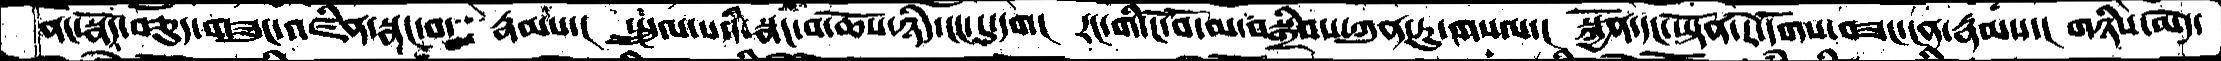ནང་སྣོད་བཅུད་གཟུང་འཛིན་སྣང་བ་   རྣམས་།  སྤྲུལ་པའི་སྣང་བ་ཆོས་ཉིད་ངང་དུ་དག།  རང་གི་ངོ་བོ་མ་བསྒྲིབས་ཀུན་ཏུ་གསལ་།  སྐྱོན་དང་ཡྟོན་རེ་དོགས་བཟང་ངན་རྣམས་།  གཉིས་མེད་
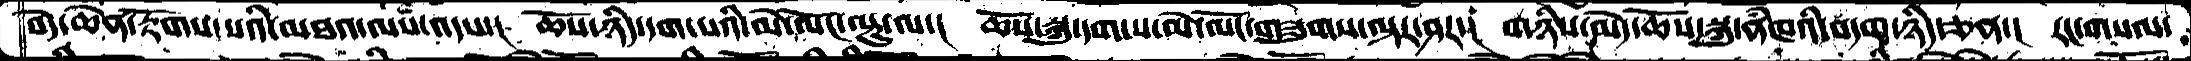བདེ་ཆེན་རྟོགས་པའི་མཐའ་ལས་འདས་།  ཆོས་ཉིད་དག་པའི་མེ་ལོང་ལྟུ་ལ་།  ཆོས་སྐུ་དག་པ་མེ་ལོང་གཟུགས་ལྟར་ཤར་།  གཉིས་མེད་ཆོས་སྐུ་ནཾཁའི་བདག་ཉིད་ཅན་།  རང་གསལ་
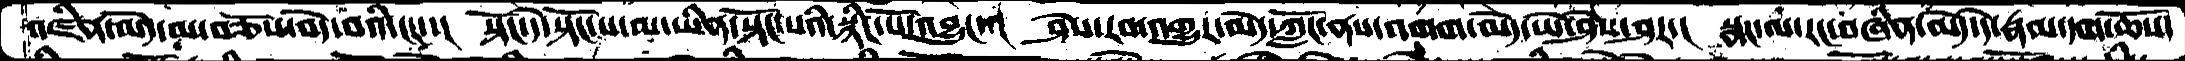འཛིན་མེད་མ་བཅོས་བདེ་བའི་ངང་་།  སྟོང་དེ་སྟོང་པ་མ་ཡིན་སྟོང་པའི་སྙིང་པོ་འབྱུང་་།  ཤེས་རབ་འགྱུར་མེད་ཀློང་ནས་འགག་མེད་ཡེ་ཤེས་ཤར་།  སྣང་ལ་རང་བཞིན་མེད་དེ་རྣམ་དག་ཆོས་
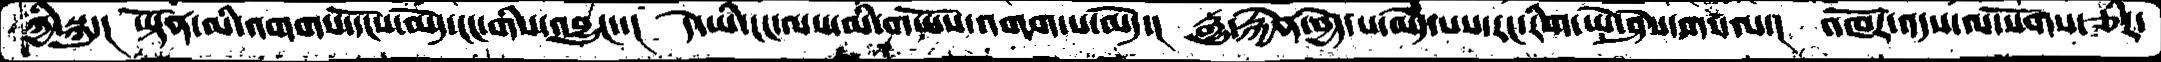ཀྱི་སྐུ་།  ཡྟོན་མི་འགགས་དངོས་མེད་ངང་གིས་འབྱུང་་།  དེ་ཡི་ངང་ལས་མི་གཡོས་འགག་པ་མེད་།  རྒྱུ་རྐྱེན་བྱེད་པ་མེད་པས་རང་རིག་ཡེ་ཤེས་གསལ་།  འཁོར་འདས་ལ་སོགས་ཅིར་
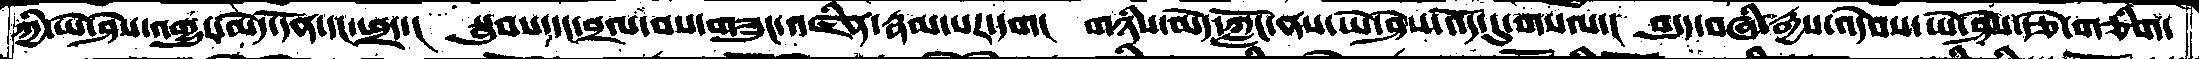ཀྱི་ཡེ་ཤེས་འགྱུར་མེད་དོན་དང་ཕྲད་།  སྦུབས་དང་བྲལ་བས་གཟུང་འཛིན་རྣམ་པར་དག།  གཉིས་མེད་ཀློང་ནས་ཡེ་ཤེས་འོད་དུ་གསལ་།  བདུད་བཞི་རྒྱས་འདེབས་ཡེ་ཤེས་རྩེ་གཅིག་
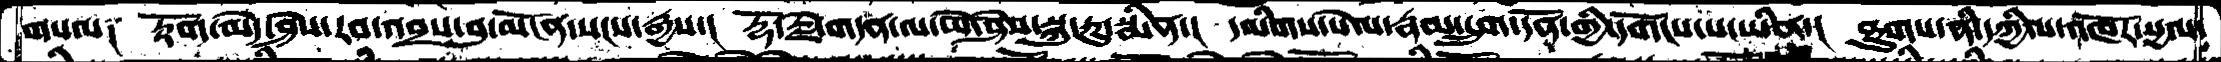གསལ༑  རྟོག་མེད་ཤེས་རབ་འབྲས་བུ་མངོན་སངས་རྒྱས་།  རྡོ་རྗེ་གདན་ལ་ཡེ་ཤེས་སྐུ་རུ་སྨིན་།  དམིགས་སེལ་རྣམ་དྲུག་དོན་གྱི་དགོངས་པ་ཡིན་།  ཐུགས་ནི་དཀྱིལ་འཁོར་སྱལ་
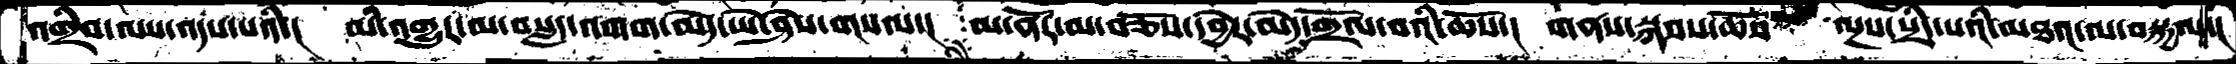འགྲིབ་ལས་འདས་པའི་།  མི་འགྱུར་མ་བསླད་འགག་མེད་ཡེ་ཤེས་གསལ་།  མ་ནོར་མ་བཅོས་དབྱེར་མེད་གྲོལ་བའི་ཆོས་།  གནས་སྐབས་ཆོས་    ལྔས་སྲིད་པའི་མཐའ་ལ་བསྐྱལ་།
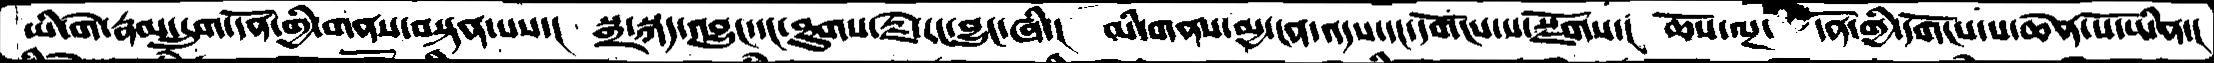ཡི་གེ་རྣམ་དྲུག་དོན་གྱི་གནས་བསྟན་པས་།  སྒྲ་སྐད་འབྱུང་དང་ཐུགས་རྗེ་རང་བྱུང་ཞི་།  མི་གནས་མྱ་ངན་འདས་དང་དགོངས་པ་སྫོགས་།  ཆོས་ལྔ་  དོན་གྱི་དགོངས་པ་ཆེན་པོ་ཡིན་།
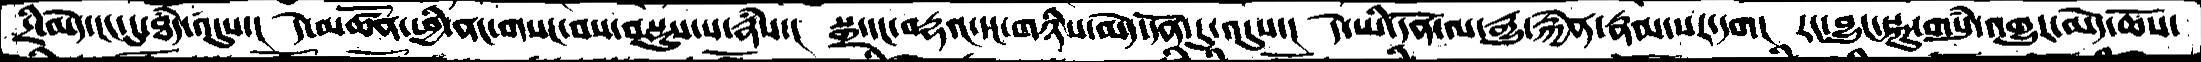དྲི་མེད་ངང་དུ་ཐཾད་འདུས་།  དེ་མཚོན་ཕྱི་ནང་གསང་བས་བསྡུས་པ་རྣཾས་།  སྒྲ་དང་བརྡའ་དང་གཉིས་མེད་དོན་དུ་འདུས་།  དེ་ཡི་དོན་ལ་རྒྱུ་རྐྱེན་རྣམ་པར་དག།  རང་བྱུང་སྐུ་གསུཾ་འགྱུར་མེད་ཆོས་
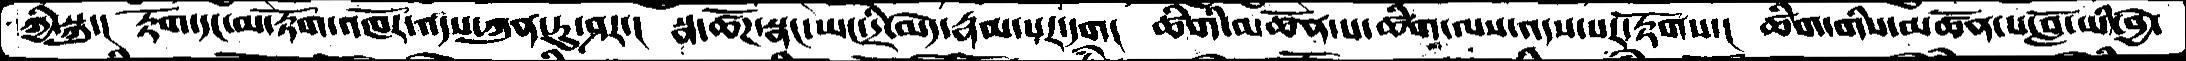ཀྱི་སྐུ་།  རྟོག་དང་མ་རྟོག་འཁོར་འདས་ཀུན་ཏུ་ཤར་།  སྣ་ཚོཌ་སྣང་ཡང་དྲི་མེད་རྣམ་པར་དག།  ཚིགི་མཚོན་པ་ཚིག་ལས་འདས་པར་རྟོགས་།  ཚིག་གིས་མཚོན་པ་བློ་ཡི་བྱེ་
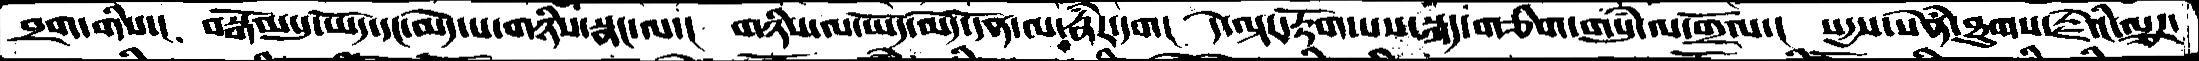བྲག་གིས་།  བསྒོམསུ་ཡོད་དང་མེད་པ་གཉིས་སྣང་ལ་།  གཉིས་ལ་ཡོད་མེད་དོན་ལ་རྣཾར་དག།  དེ་ལྟར་རྟོག་པས་སྐད་གཅིག་གསུཾ་ལ་གྲོལ་།  སདྱས་སེཾན་ཐུགས་རྗེའི་ལྕཌ་
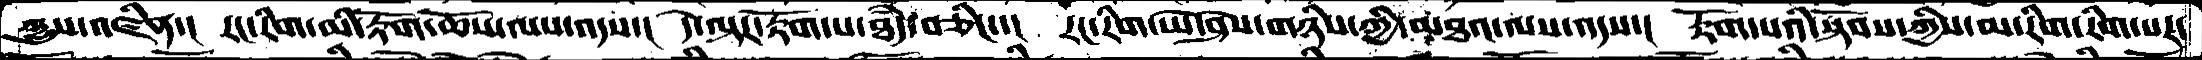ཀྱུས་འཛིན་།  རང་རིག་མི་རྟོག་ཆོས་ལས་འདས་།  དེ་ལྟར་རྟོག་པ་ཐཾད་བཅིང་་།  རང་རིག་ཡེ་ཤེས་གཉིས་ཀྱི་མཐའ་ལས་འདས་།  རྟོག་པའི་སྟོབས་ཀྱིས་མ་རིག་རིག་པར་
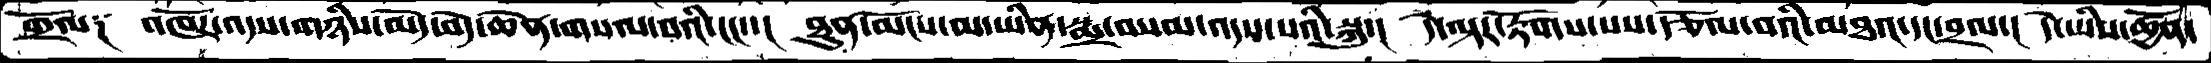གྲོལ༑  འཁོར་འདས་གཉིས་མེད་བདེ་ཆེན་གསལ་བའི་ངང་་།  ཐུན་མོངས་མ་ཡིན་སྨྲ་བསམ་འདས་པའི་སྐུ་།  དེ་ལྟར་རྟོགས་པས་རྩོལ་བའི་མཐའ་དང་བྲལ་།  དེ་ཡི་ཚྱོན་
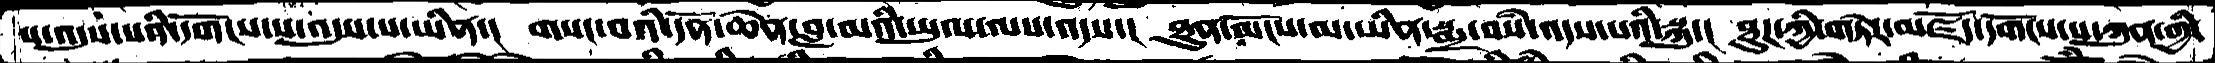པ་འདུས་པའི་དགོངས་པ་འདུས་པ་ཡིན་།  གསང་བའི་དོན་ཆེན་བླ་མའི་ཡུལ་ལས་འདས་།  ཐུན་མོངས་མ་ཡིན་སྨྲ་བསཾ་འདས་པའི་སྐུ་།  ཐུཌ་ཀྱི་གཏེར་མཛོད་དགོངས་པ་ཀུན་གྱི་
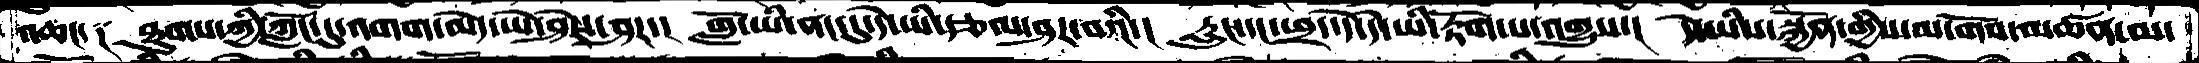འཆང་༑  ཐུགས་ཀྱི་ཀློང་དུ་འགག་མེད་ཡེ་ཤེས་ཤར་།  གློ་ཡི་ནང་དུ་དེ་ཡི་རྩལ་ཤར་བའི་།  རླུང་དང་ཕྲད་དེ་དེ་ཡི་རྟོག་པ་འགྱུས་།  དེ་ཡིས་སྐྱོན་གྱིས་མ་གོས་མཚན་མ་
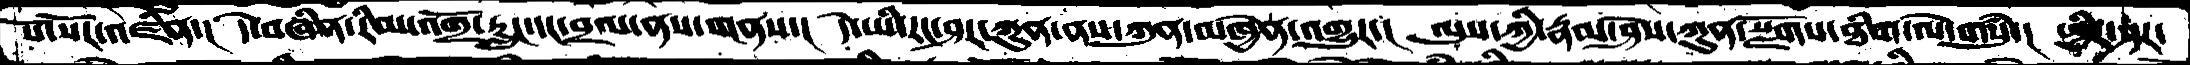སོ་སོར་འཛིན་།   དེ་བཞིན་རིམ་འགྲོ་རླུང་དང་བྲལ་ནས་གནས་།   དེ་ཡི་རང་ཤར་ཀུན་ནས་ཀུན་མཁྱེན་འགྱུར་།  ལུས་ཀྱི་རྣམ་ཤེས་ཀུན་སྫོགས་ཐིག་ལེ་གསུཾ་།  ཕྱིར་ཤར་
